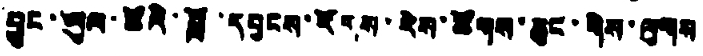བྱུང་ཡུལ་ཚོའི་བློ་དབྱངས་རོགས་རེས་ཚོགས་ཆུང་གིས་ལུགས
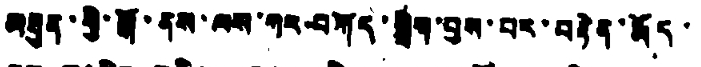མཐུན་གྱི་སྒོ་ནས་ལས་ཀར་བཀོད་སྒྲིག་བྱས་པར་བརྟེན་རྨོད་
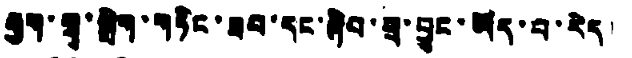རྒྱག་གྲྭ་སྒྲིག་གཏིང་ཟབ་དང་ཞིབ་ཕྲ་བྱུང་ཡོད་པ་རེད།
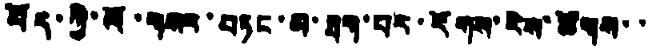བོད་ཀྱི་ལོ་གསར་བཏང་མ་ཐག་པར་རོགས་རེས་ཚོགས་་
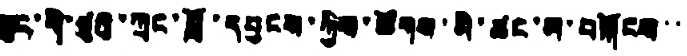ཆུང་གི་ཙུའུ་ཀྲང་བློ་དབྱངས་ཀྱིས་ཚོགས་མི་ཚང་མ་བསྐོངས་་
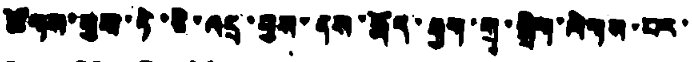ཚོགས་བྱས་ཏེ་ཅི་འདྲ་བྱས་ནས་རྨོད་རྒྱག་གྲྭ་སྒྲིག་ལེགས་པར་
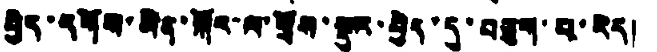བྱེད་དགོས་མིན་སྐོར་ལ་གྲོས་སྡུར་བྱེད་དུ་བཅུག་པ་རེད།
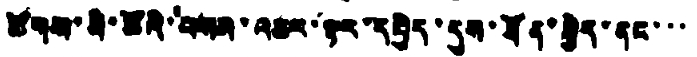ཚོགས་མི་ཚོའི་བསམ་འཆར་ལྟར་དཔྱིད་དུས་ཐོན་སྐྱེད་ནང་་་
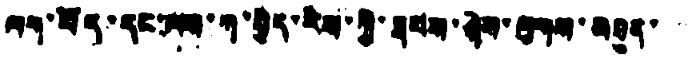ལག་བོད་དང་ལས་ཀ་བྱེད་རེས་ཀྱི་ཐབས་ཞེས་ལུགས་མཐུན་
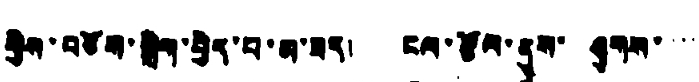གྱིས་བཅོས་སྒྲིག་བྱེད་པ་མ་ཟད། ངལ་རྩོལ་ནུས་ ཤུགས་་་་
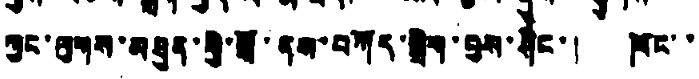ཀྱང་ལུགས་མཐུན་གྱི་སྒོ་ནས་བཀོད་སྒྲིག་བྱས་ཤིང་། ཁོང་་
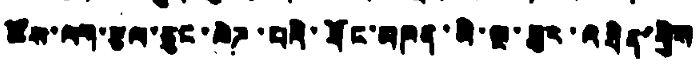ཚོས་ལག་རྩལ་ཅུང་ལེཌ་པའི་ཐོང་མཁན་མི་ལྔ་ཟུར་འཐེན་གྱིས
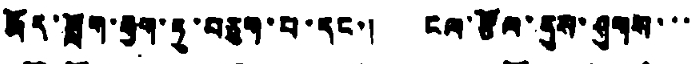རྨོད་སློག་རྒྱག་ཏུ་བཅུག་པ་དང་། ངལ་རྩོལ་ནུས་ཤུགས་་་་
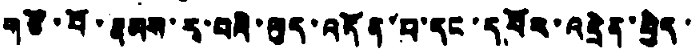གཙོ་བོ་རྣམས་རྭ་བའི་ལུད་འདོན་པ་དང་དཔོར་འདྲེན་བྱེད་
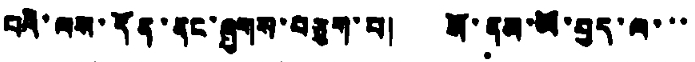པའི་ལས་དོན་ནང་ཞུགས་བཅུག་པ། སོ་ནམ་ཡོ་བྱད་ལ་་་
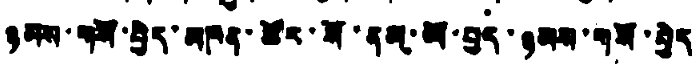ཉམས་གསོ་བྱེད་མཁན་ཚོར་སོ་ནམ་ཡོ་བྱད་ཉམས་གསོ་བྱེད
